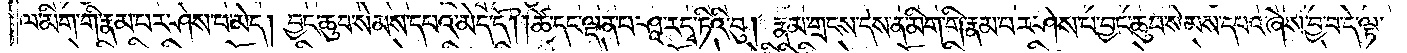ལ་མིག་གི་རྣམ་པར་ཤེས་པ་མེད། བྱང་ཆུབ་སེམས་དཔའ་མེད་དོ། །ཚེ་དང་ལྡན་པ་ཤཱ་ར་དྭ་ཏིའི་བུ། རྣམ་གྲངས་དེས་ན་མིག་གི་རྣམ་པར་ཤེས་པ་བྱང་ཆུབ་སེམས་དཔའ་ཞེས་བྱ་བ་དེ་ལྟ་
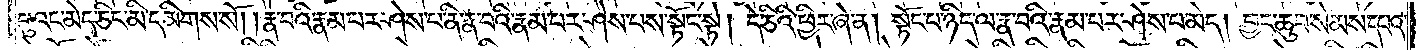བུའང་མེད་ཅིང་མི་དམིགས་སོ། །རྣ་བའི་རྣམ་པར་ཤེས་པ་ནི་རྣ་བའི་རྣམ་པར་ཤེས་པས་སྟོང་སྟེ། དེ་ཅིའི་ཕྱིར་ཞེ་ན། སྟོང་པ་ཉིད་ལ་རྣ་བའི་རྣམ་པར་ཤེས་པ་མེད། བྱང་ཆུབ་སེམས་དཔའ་
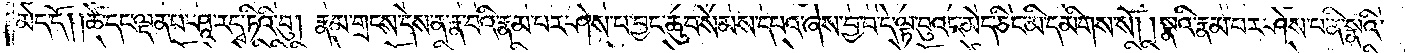མེད་དོ། །ཚེ་དང་ལྡན་པ་ཤཱ་ར་དྭ་ཏིའི་བུ། རྣམ་གྲངས་དེས་ན་རྣ་བའི་རྣམ་པར་ཤེས་པ་བྱང་ཆུབ་སེམས་དཔའ་ཞེས་བྱ་བ་དེ་ལྟ་བུའང་མེད་ཅིང་མི་དམིགས་སོ། །སྣའི་རྣམ་པར་ཤེས་པ་ནི་སྣའི་
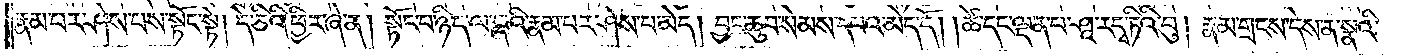རྣམ་པར་ཤེས་པས་སྟོང་སྟེ། དེ་ཅིའི་ཕྱིར་ཞེ་ན། སྟོང་པ་ཉིད་ལ་སྣའི་རྣམ་པར་ཤེས་པ་མེད། བྱང་ཆུབ་སེམས་དཔའ་མེད་དོ། །ཚེ་དང་ལྡན་པ་ཤཱ་ར་དྭ་ཏིའི་བུ། རྣམ་གྲངས་དེས་ན་སྣའི་
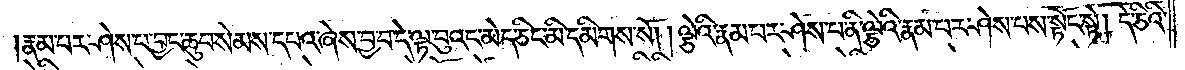རྣམ་པར་ཤེས་པ་བྱང་ཆུབ་སེམས་དཔའ་ཞེས་བྱ་བ་དེ་ལྟ་བུའང་མེད་ཅིང་མི་དམིགས་སོ། །ལྕེའི་རྣམ་པར་ཤེས་པ་ནི་ལྕེའི་རྣམ་པར་ཤེས་པས་སྟོང་སྟེ། དེ་ཅིའི་
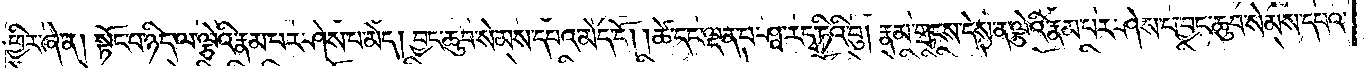ཕྱིར་ཞེ་ན། སྟོང་པ་ཉིད་ལ་ལྕེའི་རྣམ་པར་ཤེས་པ་མེད། བྱང་ཆུབ་སེམས་དཔའ་མེད་དོ། །ཚེ་དང་ལྡན་པ་ཤཱ་ར་དྭ་ཏིའི་བུ། རྣམ་གྲངས་དེས་ན་ལྕེའི་རྣམ་པར་ཤེས་པ་བྱང་ཆུབ་སེམས་དཔའ་
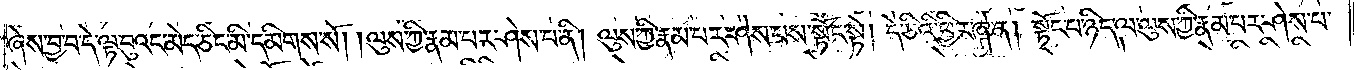ཞེས་བྱ་བ་དེ་ལྟ་བུའང་མེད་ཅིང་མི་དམིགས་སོ། །ལུས་ཀྱི་རྣམ་པར་ཤེས་པ་ནི། ལུས་ཀྱི་རྣམ་པར་ཤེས་པས་སྟོང་སྟེ། དེ་ཅིའི་ཕྱིར་ཞེ་ན། སྟོང་པ་ཉིད་ལ་ལུས་ཀྱི་རྣམ་པར་ཤེས་པ་
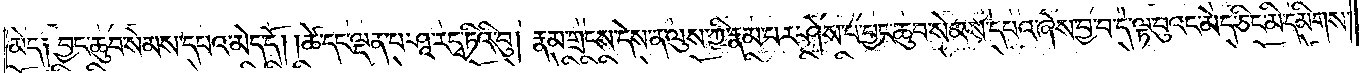མེད། བྱང་ཆུབ་སེམས་དཔའ་མེད་དོ། །ཚེ་དང་ལྡན་པ་ཤཱ་ར་དྭ་ཏིའི་བུ། རྣམ་གྲངས་དེས་ན་ལུས་ཀྱི་རྣམ་པར་ཤེས་པ་བྱང་ཆུབ་སེམས་དཔའ་ཞེས་བྱ་བ་དེ་ལྟ་བུའང་མེད་ཅིང་མི་དམིགས་
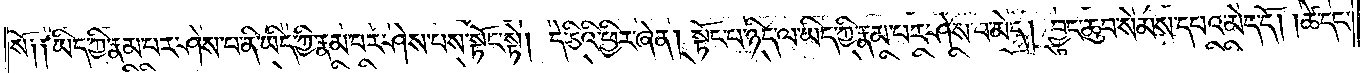སོ། །ཡིད་ཀྱི་རྣམ་པར་ཤེས་པ་ནི་ཡིད་ཀྱི་རྣམ་པར་ཤེས་པས་སྟོང་སྟེ། དེ་ཅིའི་ཕྱིར་ཞེ་ན། སྟོང་པ་ཉིད་ལ་ཡིད་ཀྱི་རྣམ་པར་ཤེས་པ་མེད། བྱང་ཆུབ་སེམས་དཔའ་མེད་དོ། །ཚེ་དང་
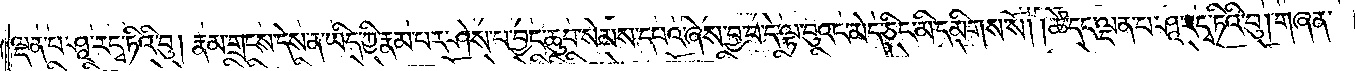ལྡན་པ་ཤཱ་ར་དྭ་ཏིའི་བུ། རྣམ་གྲངས་དེས་ན་ཡིད་ཀྱི་རྣམ་པར་ཤེས་པ་བྱང་ཆུབ་སེམས་དཔའ་ཞེས་བྱ་བ་དེ་ལྟ་བུའང་མེད་ཅིང་མི་དམིགས་སོ། །ཚེ་དང་ལྡན་པ་ཤཱ་ར་དྭ་ཏིའི་བུ། གཞན་
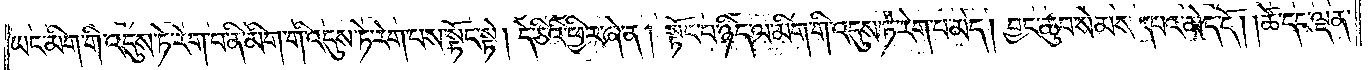ཡང་མིག་གི་འདུས་ཏེ་རེག་པ་ནི་མིག་གི་འདུས་ཏེ་རེག་པས་སྟོང་སྟེ། དེ་ཅིའི་ཕྱིར་ཞེ་ན། སྟོང་པ་ཉིད་ལ་མིག་གི་འདུས་ཏེ་རེག་པ་མེད། བྱང་ཆུབ་སེམས་དཔའ་མེད་དོ། །ཚེ་དང་ལྡན་
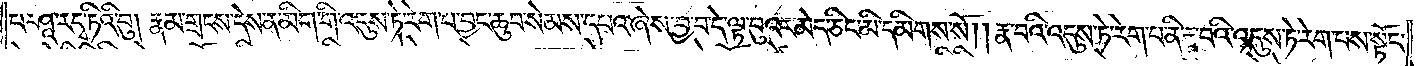པ་ཤཱ་ར་དྭ་ཏིའི་བུ། རྣམ་གྲངས་དེས་ན་མིག་གི་འདུས་ཏེ་རེག་པ་བྱང་ཆུབ་སེམས་དཔའ་ཞེས་བྱ་བ་དེ་ལྟ་བུའང་མེད་ཅིང་མི་དམིགས་སོ། །རྣ་བའི་འདུས་ཏེ་རེག་པ་ནི་རྣ་བའི་འདུས་ཏེ་རེག་པས་སྟོང་
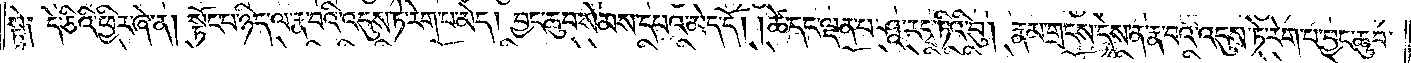སྟེ། དེ་ཅིའི་ཕྱིར་ཞེ་ན། སྟོང་པ་ཉིད་ལ་རྣ་བའི་འདུས་ཏེ་རེག་པ་མེད། བྱང་ཆུབ་སེམས་དཔའ་མེད་དོ། །ཚེ་དང་ལྡན་པ་ཤཱ་ར་དྭ་ཏིའི་བུ། རྣམ་གྲངས་དེས་ན་རྣ་བའི་འདུས་ཏེ་རེག་པ་བྱང་ཆུབ་
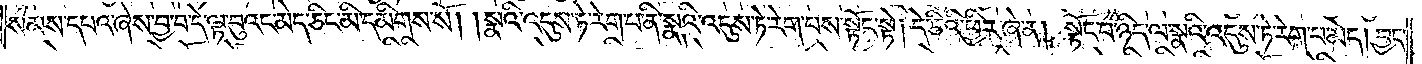སེམས་དཔའ་ཞེས་བྱ་བ་དེ་ལྟ་བུའང་མེད་ཅིང་མི་དམིགས་སོ། །སྣའི་འདུས་ཏེ་རེག་པ་ནི་སྣའི་འདུས་ཏེ་རེག་པས་སྟོང་སྟེ། དེ་ཅིའི་ཕྱིར་ཞེ་ན། སྟོང་པ་ཉིད་ལ་སྣའི་འདུས་ཏེ་རེག་པ་མེད། བྱང་
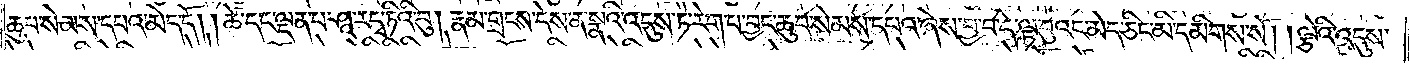ཆུབ་སེམས་དཔའ་མེད་དོ། །ཚེ་དང་ལྡན་པ་ཤཱ་ར་དྭ་ཏིའི་བུ། རྣམ་གྲངས་དེས་ན་སྣའི་འདུས་ཏེ་རེག་པ་བྱང་ཆུབ་སེམས་དཔའ་ཞེས་བྱ་བ་དེ་ལྟ་བུའང་མེད་ཅིང་མི་དམིགས་སོ། །ལྕེའི་འདུས་
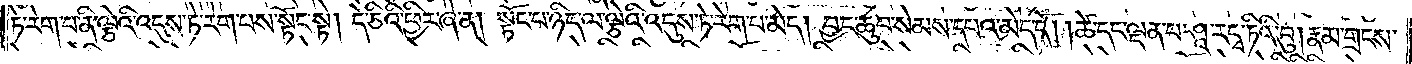ཏེ་རེག་པ་ནི་ལྕེའི་འདུས་ཏེ་རེག་པས་སྟོང་སྟེ། དེ་ཅིའི་ཕྱིར་ཞེ་ན། སྟོང་པ་ཉིད་ལ་ལྕེའི་འདུས་ཏེ་རེག་པ་མེད། བྱང་ཆུབ་སེམས་དཔའ་མེད་དོ། །ཚེ་དང་ལྡན་པ་ཤཱ་ར་དྭ་ཏིའི་བུ། རྣམ་གྲངས་
